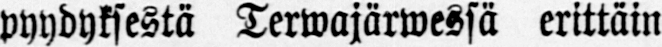pyydyksestä Terwajärwessä erittäin
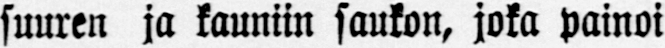suuren ja kauniin saukon, joka painoi
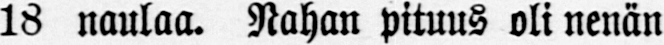18 naulaa. Nahan pituus oli nenän
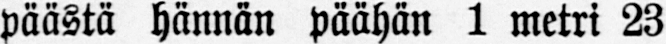päästä hännän päähän 1 metri 23
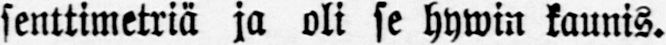senttimetriä ja oli se hywin kaunis.
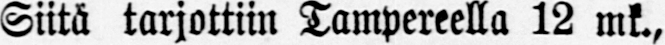Siitä tarjottiin Tampereella 12 mk.,
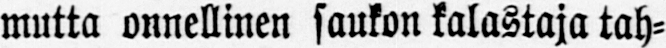mutta onnellinen saukon kalastaja tah-
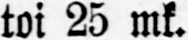toi 25 mk.
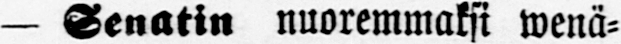— Senatin nuoremmaksi wenä-
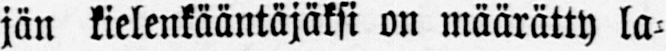jän kielenkääntäjäksi on määrätty la-
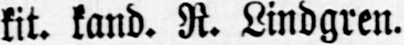kit. kand. R. Lindgren.
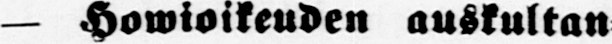— Howioikeuden auskultan-
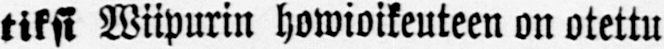tiksi Wiipurin howioikeuteen on otettu
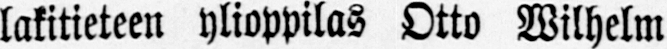lakitieteen ylioppilas Otto Wilhelm
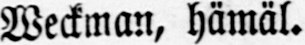Weckman, hämäl.
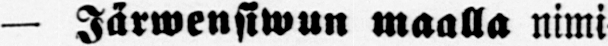— Järwensiwun maalla nimi-
